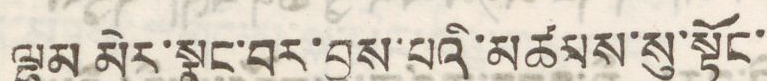ལྷམ མེར་སྣང་བར་བྱས་པའི་མཚམས་སུ་སྟོང་
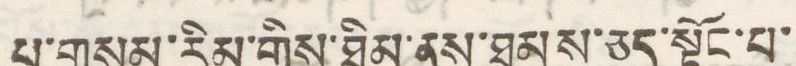པ་གསུམ་རིམ་གྱིས་ཐིམ་ནས་ཐམས་ཅད་སྟོང་པ་
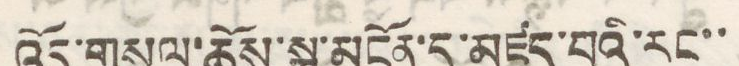འོད་གསལ་ཆོས་སྐུ་མངོན་དུ་མཛད་བའི་རང་་
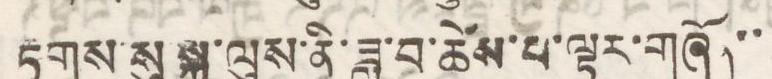རྟགས་སུ་སྐུ་ལུས་ནི་ཟླ་བ་ཚེས་པ་ལྟར་གཞོན་་
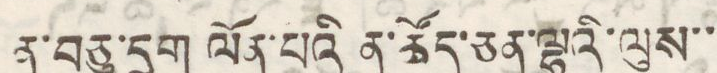ནུ་བཅུ་དྲུག ལོན་པའི ན་ཚོད་ཅན་ལྷའི་ལུས་་
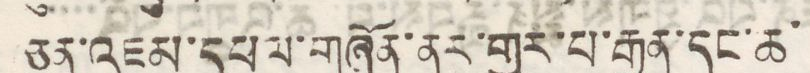ཅན་འཇམ་དཔལ་གཞོན་ནུར་གྱུར་པ་རྒྱན་དང་ཆ་
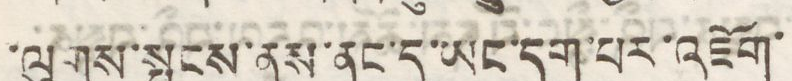་ལུགས་སྤངས་ནས་ནང་དུ་ཡང་དག་པར་འཇོག་
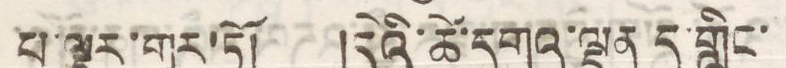པ་ལྟར་གྱུར་ཏོ། །དེའི་ཚེ་དགའ་ལྡན དུ་གླིང་
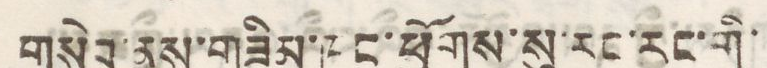གསེབ་ནས་གཟིམ་ཁང་ཕྱོགས་སུ་རང་རང་གི་
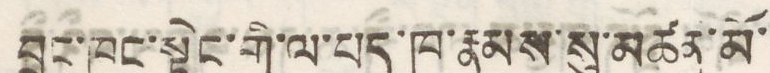བྲང་ཁང་སྟེང་གི་ལ་པད་ཁ་རྣམས་སུ་མཚན་མོ་
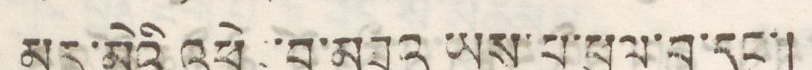མར་མེའི་འཕྲེང་བ་མཐའ ཡས་པ་ཕུལ་བ་དང་།
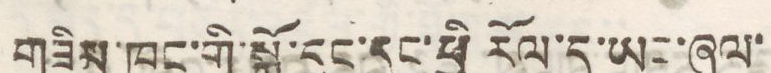གཟིམ་ཁང་གི་སྒོ་དྲུང་དང་ཕྱི རོལ་དུ་ཡང་ཞལ་
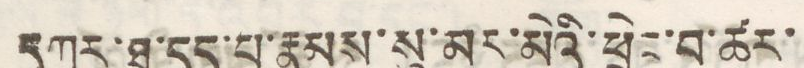དཀར་ཐ་དད་པ་རྣམས་སུ་མར་མེའི་ཕྲེང་བ་ཚར་
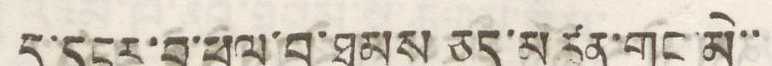དུ་དངར་བ་ཕུལ་བ་ཐམས ཅད་མཚན་གང་མེ་་
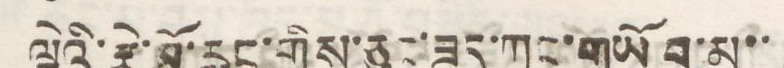ལྕེའི་རྩེ་མོ་རླུང་གིས་ཅུང་ཟད་ཀྱང་གཡོ བ་མ་་
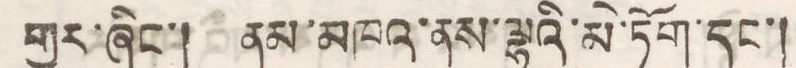གྱུར་ཞིང་། ནམ་མཁའ་ནས་ལྷའི་མེ་ཏོག་དང་།
